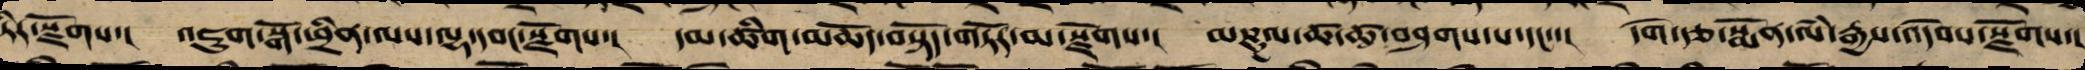ཏིར་སྫོགས་། འཇུག་སྒོ་ཕྲིན་ལས་ལྷ་དབང་སྫོགས་། དམ་ཚིག་མཆོད་བསྟོད་གཏོར་མ་སྫོགས་། མཎྜལ་ཚ་ཚ་བཤགས་པ་དང་་། དགེ་རྩ་སྨོན་ལཾ་རྒྱས་འདེབས་སྫོགས་།
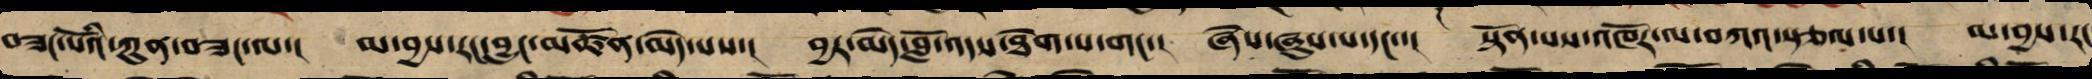བཟང་པོའི་ཀུན་བཟང་ལ་། མ་བྱས་རང་བྱུང་མཚོན་མེད་པས་། བྱར་མེད་བློ་འདས་ཐེག་པ་གང་་། ཞེས་ཞུས་པ་དང་་། སྟོན་པས་འཁོར་ལ་བཀའ་སྩལ་པ་། མ་བྱས་རང་
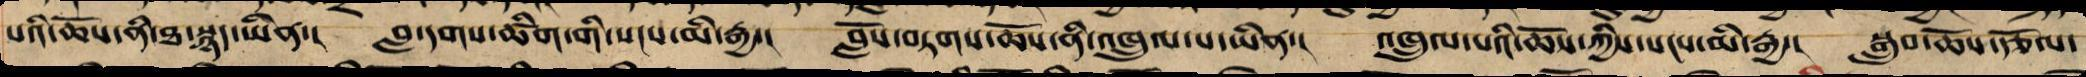པའི་ཆོས་ནི་ཐ་སྙད་ཡིན་། བླ་དགས་ཚིག་གིས་སངས་མི་རྒྱ་། བློས་བཏགས་ཆོས་ནི་འཁྲུལ་པ་ཡིན་། འཁྲུལ་པའི་ཆོས་ཀྱིས་སངས་མི་རྒྱ་། སྒྲུབ་ཆོས་རྩོལ་
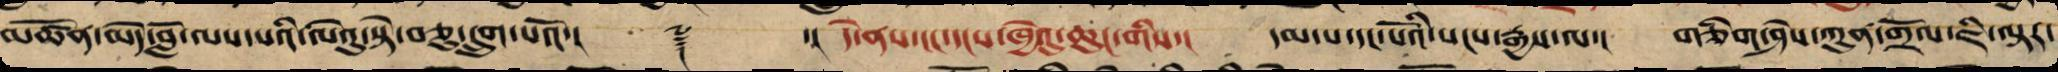མཚོན་མེད་བློ་ལས་འདས་པའི་ལེའུ་སྟེ་བཅུ་དྲུག་པའོ་།། ༈ ་། །དེ་ནས་ངང་དངས་ཁྱེའུ་ཆུང་གིས་། དམ་པ་དང་པོའི་སངས་རྒྱས་ལ་། གཅིག་ཤེས་ཀུན་གྲོལ་ཇི་ལྟར་
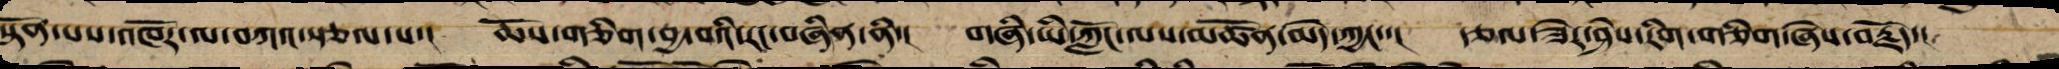སྟོན་པས་འཁོར་ལ་བཀའ་སྩལ་པ་། ཆོས་གཅིག་བྱ་བའི་རང་བཞིན་ནི་། གཞི་ཡི་ཀློང་ལས་མཚོན་མེད་ཀྱང་་། རྩལ་ཟེར་ཤེས་རིག་གཅིག་ཅེས་བརྗོད་།
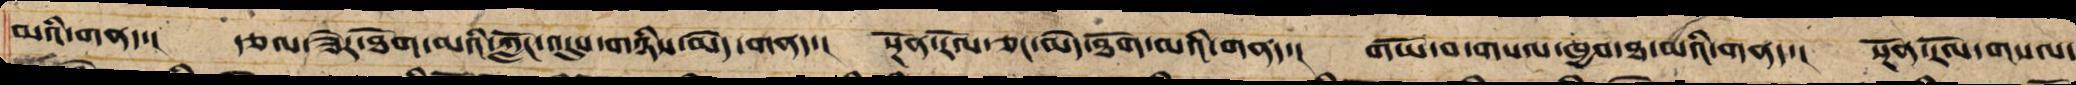མའི་གནད་། རྩལ་ཟེར་ཐོག་མའི་ཀློང་འདུས་གཉིས་མེད་གནད་། སྔོན་རོལ་ཅང་མེད་ཐོག་མའི་གནད་། གཡོ་བ་གསལ་ཁྱབ་ཐ་མའི་གནད་། སྔོན་རོལ་གསལ་
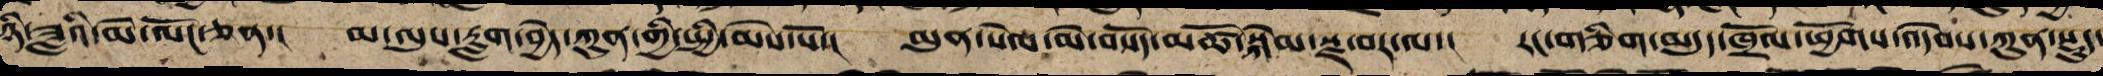ཉི་ཟླའི་མེ་ལོང་ཅན་། མ་ལུས་རླག་བྱེད་ཀུན་གྱི་སྤྱི་མེས་པོ་། མུན་སེལ་མེ་གསོད་མཚོ་སྐེམ་སྫ་བར་ལ་། རང་གཅིག་མདུད་ཁྲོལ་ཕྱོགས་འདེབས་ཀུན་སྡུད་
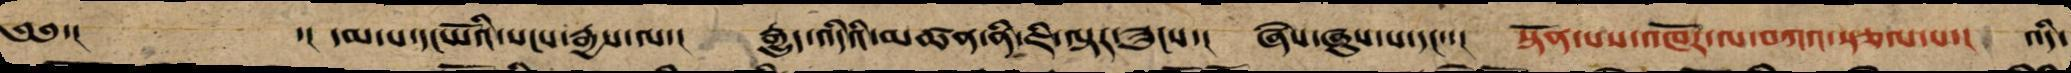༄༅་། ་། དམ་པ་དང་པོའི་སངས་རྒྱས་ལ་། རྒྱུད་འདིའི་མཚན་ནི་ཇི་ལྟར་གཟུངས་། ཞེས་ཞུས་པ་དང་་། སྟོན་པས་འཁོར་ལ་བཀའ་སྩལ་པ་། འདི་
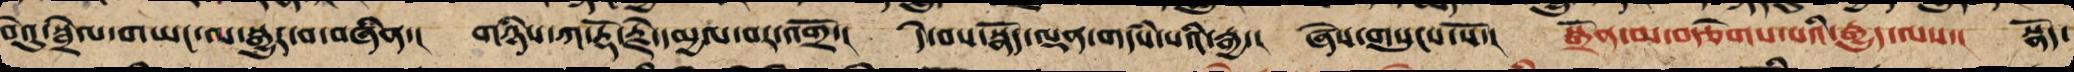བེའུ་སྦྲེལ་གཡང་ལ་བསྐྱུར་བ་བཞིན་། གཉིས་ཀ་རྡོ་རྗེ་དམྱལ་བར་འགྲོ་། དེ་བས་སྣོད་ལྡན་གདཾས་པའི་རྒྱ་། ཞེས་གསུངས་སོ་། སྒྲོན་མ་བརྩེགས་པའི་རྒྱུད་ལས་། སྣོད་
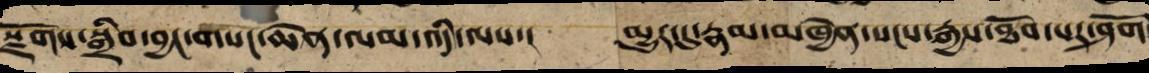སྫོགས་སྒྲིབ་བྱང་གསང་ཆེན་ལམ་འདི་ལས་། མྱུར་དུ་རྣམ་མཁྱེན་སངས་རྒྱས་ཐོབ་པར་ཤོག
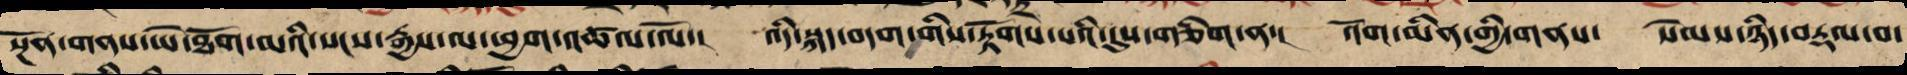སྔོན་གནས་ཡེ་ཐོག་མའི་སངས་རྒྱས་ལ་ཕྱག་འཚལ་ལོ་། འདི་སྐད་བདག་གིས་རྟོགས་པའི་དུས་གཅིག་ན་། འོག་མིན་གྱི་གནས་ སེམས་ཉིད་བརྡལ་བ་
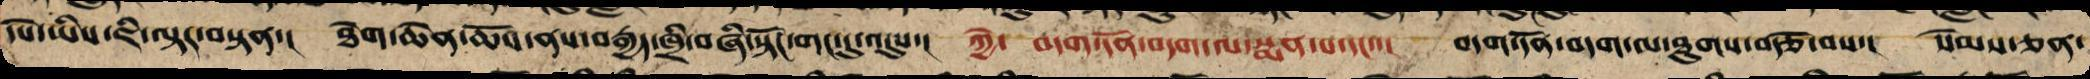དཔེ་ཡིས་ཇི་ལྟར་བསྟན་། ཐེག་ཆེན་ཆོས་ནི་བརྒྱད་ཁྲི་བཞི་སྟོང་གང་དུ་འདུས་། ཀྱེ་ བདག་དོན་བདག་ལ་སྨན་པ་དང་་། བདག་དོན་བདག་ལ་ཐུགས་བརྩེ་བས་། སེམས་ཅན་
